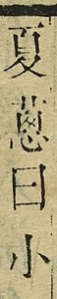夏蔥曰小
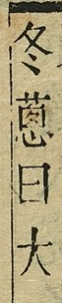冬蔥曰大
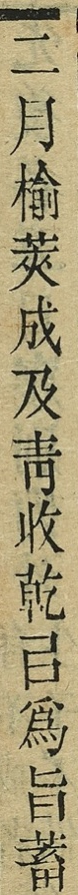二月榆莢成及青收乾以為旨蓄
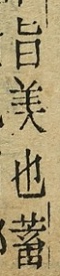旨美也蓄
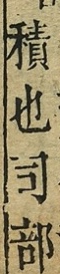積也司部
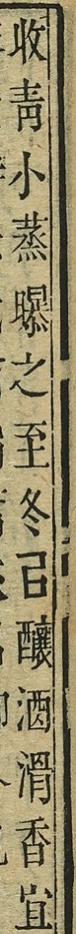收青小蒸曝之至冬以釀酒滑香宜
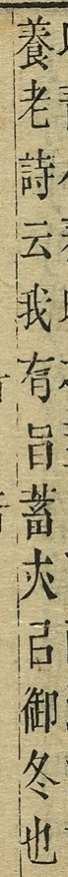養老詩云我有旨蓄亦以御冬也
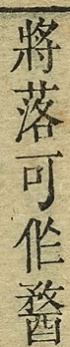將落可倫𨡭
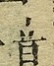音
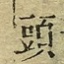頭
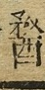𨡭
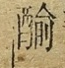䤅
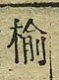榆
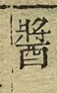醬
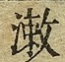漱
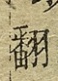翻
